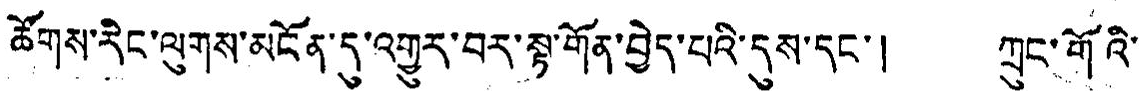ཚོགས་རིང་ལུགས་མངོན་དུ་འགྱུར་བར་སྟ་གོན་བྱེད་པའི་དུས་དང་། ཀྲུང་གོའི་
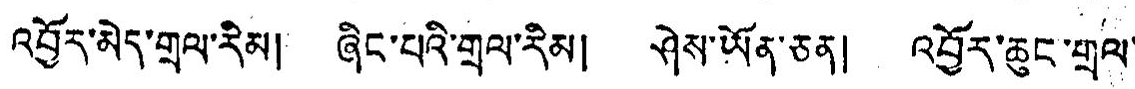འབྱོར་མེད་གྲལ་རིམ། ཞིང་པའི་གྲལ་རིམ། ཤེས་ཡོན་ཅན། འབྱོར་ཆུང་གྲལ་
